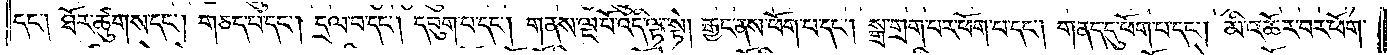དང༌། ཐོར་ཚུགས་དང༌། གཅད་པ་དང༌། དྲལ་བ་དང༌། དབུག་པ་དང༌། གནས་ལྔ་པོ་འདི་ལྟ་སྟེ། རྒྱང་ནས་ཕོག་པ་དང༌། སྒྲ་གྲག་པར་ཕོག་པ་དང༌། གནད་དུ་ཕོག་པ་དང༌། མི་འཆོར་བར་ཕོག་
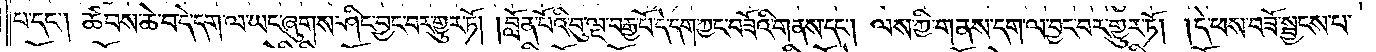པ་དང༌། ཚབས་ཆེ་བ་དེ་དག་ལ་ཡང་ཞུགས་ཤིང་བྱང་བར་གྱུར་ཏོ། །བློན་པོའི་བུ་ལྔ་བརྒྱ་པོ་དེ་དག་ཀྱང་བཟོའི་གནས་དང༌། ལས་ཀྱི་གནས་དག་ལ་བྱང་བར་གྱུར་ཏོ། །དེ་ཕས་བཟོ་སྦྱངས་པ་
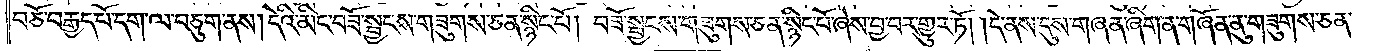བཅོ་བརྒྱད་པོ་དག་ལ་བཅུག་ནས། དེའི་མིང་བཟོ་སྦྱངས་གཟུགས་ཅན་སྙིང་པོ། བཟོ་སྦྱངས་གཟུགས་ཅན་སྙིང་པོ་ཞེས་བྱ་བར་གྱུར་ཏོ། །དེ་ནས་དུས་གཞན་ཞིག་ན་གཞོན་ནུ་གཟུགས་ཅན་
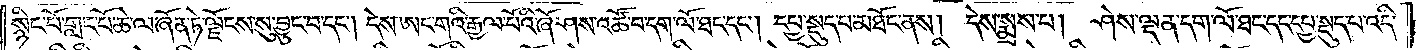སྙིང་པོ་གླང་པོ་ཆེ་ལ་ཞོན་ཏེ་ལྗོངས་སུ་བྱུང་བ་དང༌། དེས་ཨང་གའི་རྒྱལ་པོའི་ཞོ་ཤས་འཚོ་བ་དག་ལོ་ཐང་དང༌། དཔྱ་སྡུད་པ་མཐོང་ནས། དེས་སྨྲས་པ། ཤེས་ལྡན་དག་ལོ་ཐང་དང་དཔྱ་སྡུད་པ་འདི་
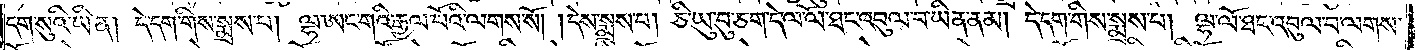དག་སུའི་ཡིན། དེ་དག་གིས་སྨྲས་པ། ལྷ་ཨང་གའི་རྒྱལ་པོའི་ལགས་སོ། །དེས་སྨྲས་པ། ཅི་ཡུ་བུ་ཅག་དེ་ལ་ལོ་ཐང་འབུལ་བ་ཡིན་ནམ། དེ་དག་གིས་སྨྲས་པ། ལྷ་ལོ་ཐང་འབུལ་བ་ལགས་
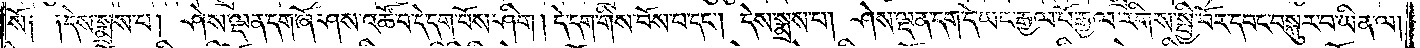སོ༑ ༑དེས་སྨྲས་པ། ཤེས་ལྡན་དག་ཞོ་ཤས་འཚོ་བ་དེ་དག་བོས་ཤིག། དེ་དག་གིས་བོས་པ་དང༌། དེས་སྨྲས་པ། ཤེས་ལྡན་དག་དེ་ཡང་རྒྱལ་པོ་རྒྱལ་རིགས་སྤྱི་བོར་དབང་བསྐུར་བ་ཡིན་ལ།
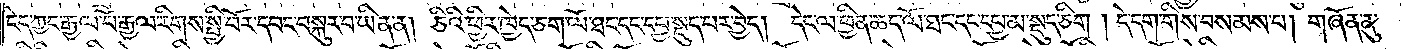ངེད་ཀྱང་རྒྱལ་པོ་རྒྱལ་རིགས་སྤྱི་བོར་དབང་བསྐུར་བ་ཡིན་ན། ཅིའི་ཕྱིར་ཁྱེད་ཅག་ལོ་ཐང་དང་དཔྱ་སྡུད་པར་བྱེད། དེང་ལ་ཕྱིན་ཆད་ལོ་ཐང་དང་དཔྱ་མ་སྡུད་ཅིག །དེ་དག་གིས་བསམས་པ། གཞོན་ནུ་
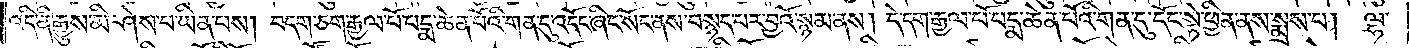འདི་ནི་རྒྱུས་མི་ཤེས་པ་ཡིན་པས། བདག་ཅག་རྒྱལ་པོ་པདྨ་ཆེན་པོའི་གན་དུ་འདོང་ཞིང་སོང་ནས་བསྙད་པར་བྱའོ་སྙམ་ནས། དེ་དག་རྒྱལ་པོ་པདྨ་ཆེན་པོའི་གན་དུ་དོང་སྟེ་ཕྱིན་ནས་སྨྲས་པ། ལྷ་
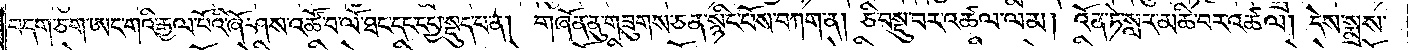བདག་ཅག་ཨང་གའི་རྒྱལ་པོའི་ཞོ་ཤས་འཚོ་བ་ལོ་ཐང་དང་དཔྱ་སྡུད་པ་ན། གཞོན་ནུ་གཟུགས་ཅན་སྙིང་པོས་བཀག་ན། ཅི་བསྡུ་བར་འཚལ་ལམ། འོན་ཏེ་སླར་མཆི་བར་འཚལ། དེས་སྨྲས་
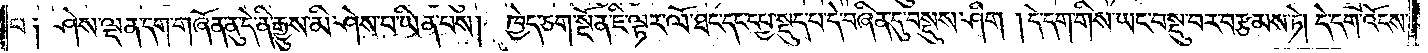པ༑ ཤེས་ལྡན་དག་གཞོན་ནུ་དེ་ནི་རྒྱུས་མི་ཤེས་པ་ཡིན་པས། ཁྱེད་ཅག་སྔོན་ཇི་ལྟར་ལོ་ཐང་དང་དཔྱ་སྡུད་པ་དེ་བཞིན་དུ་བསྡུས་ཤིག །དེ་དག་གིས་ཡང་བསྡུ་བར་བརྩམས་ཏེ། དེ་དག་འོངས་
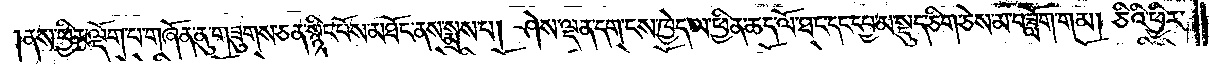ནས་ཕྱིར་ལྡོག་པ་གཞོན་ནུ་གཟུགས་ཅན་སྙིང་པོས་མཐོང་ནས་སྨྲས་པ། ཤེས་ལྡན་དག་ངས་ཁྱེད་ལ་ཕྱིན་ཆད་ལོ་ཐང་དང་དཔྱ་མ་སྡུད་ཅིག་ཅེས་མ་བཟློག་གམ། ཅིའི་ཕྱིར་
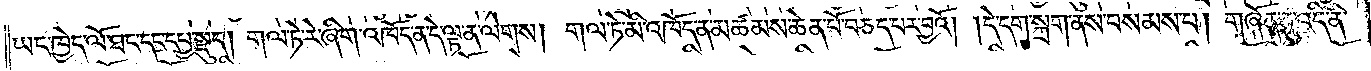ཡང་ཁྱེད་ལོ་ཐང་དང་དཔྱ་སྡུད། གལ་ཏེ་རེ་ཞིག་འཁོད་ན་དེ་ལྟ་ན་ལེགས། གལ་ཏེ་མི་འཁོད་ན་མཚམས་ཆེན་པོ་བཅད་པར་བྱའོ། །དེ་དག་སྐྲག་ནས་བསམས་པ། གཞོན་ནུ་འདི་ནི་
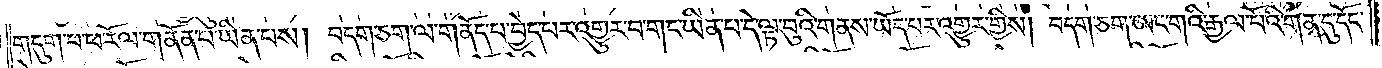གདུག་པ་ཕ་རོལ་གནོན་པ་ཡིན་པས། བདག་ཅག་ལ་གནོད་པ་བྱེད་པར་འགྱུར་བ་གང་ཡིན་པ་དེ་ལྟ་བུའི་གནས་ཡོད་པར་འགྱུར་གྱིས། བདག་ཅག་ཨང་གའི་རྒྱལ་པོའི་གན་དུ་དོང་
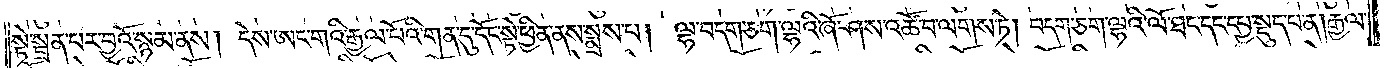སྟེ་སྦྲན་པར་བྱའོ་སྙམ་ནས། དེས་ཨང་གའི་རྒྱལ་པོའི་གན་དུ་དོང་སྟེ་ཕྱིན་ནས་སྨྲས་པ། ལྷ་བདག་ཅག་ལྷའི་ཞོ་ཤས་འཚོ་བ་ལགས་ཏེ། བདག་ཅག་ལྷའི་ལོ་ཐང་དང་དཔྱ་སྡུད་པ་ན། རྒྱལ་
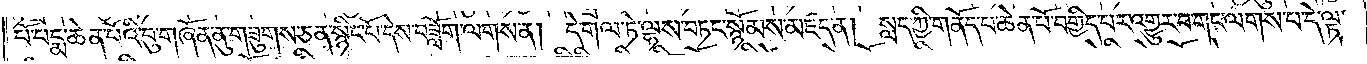པོ་པདྨ་ཆེན་པོའི་བུ་གཞོན་ནུ་གཟུགས་ཅན་སྙིང་པོ་དེས་བཟློག་ལགས་ན། དེ་གལ་ཏེ་ལྷས་བཏང་སྙོམས་མཛད་ན། སླད་ཀྱི་གནོད་པ་ཆེན་པོ་བགྱིད་པར་འགྱུར་བ་གང་ལགས་པ་དེ་ལྟ་
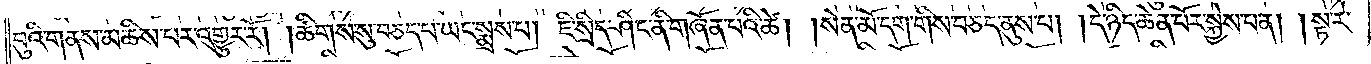བུའི་གནས་མཆིས་པར་འགྱུར་རོ། །ཚིགས་སུ་བཅད་པ་ཡང་སྨྲས་པ། ཇི་སྲིད་ཤིང་ནི་གཞོན་པའི་ཚེ། །སེན་མོ་དག་གིས་བཅད་ནུས་པ། །དེ་ཉིད་ཆེན་པོར་སྐྱེས་པ་ན། །སྟ་རེ་
